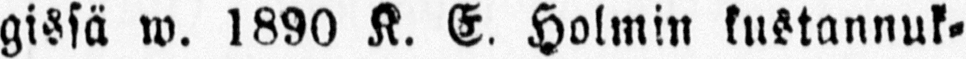gissä w. 1890 K. E. Holmin kustannuk-
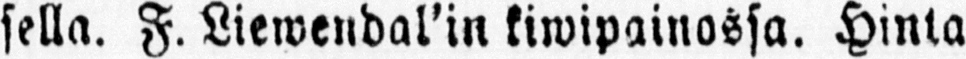sella. F. Liewendal'in kiwipainossa. Hinta
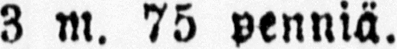3 m. 75 penniä.
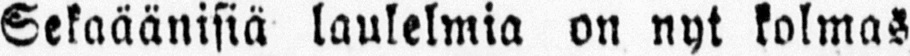Sekaäänisiä laulelmia on nyt kolmas
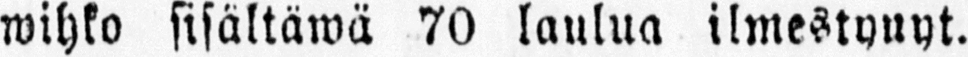wihko sisältäwä 70 laulua ilmestynyt.
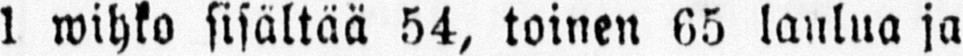1 wihko sisältää 54, toinen 65 laulua ja
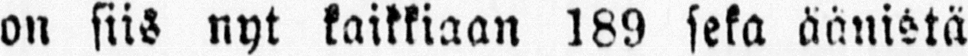on siis nyt kaikkiaan 189 seka äänistä
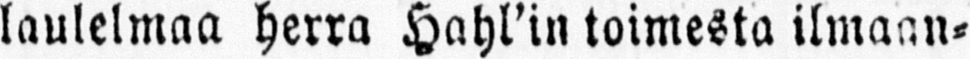laulelmaa herra Hahl'in toimesta ilmaan-
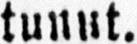tunut.
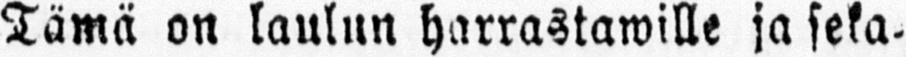Tämä on laulun harrastawille ja seka-
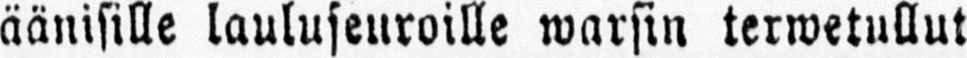äänisille lauluseuroille warsin terwetullut
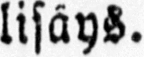lisäys.
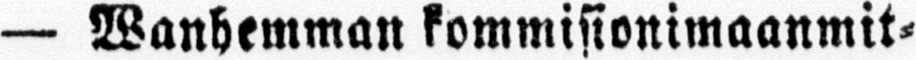— Wanhemman kommisionimaanmit-
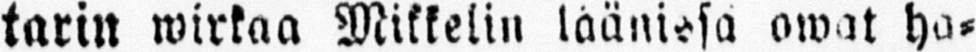tarin wirkaa Mikkelin läänissa owat ha-
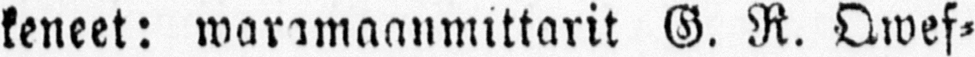keneet: waramaanmittarit G. R. Qwef-
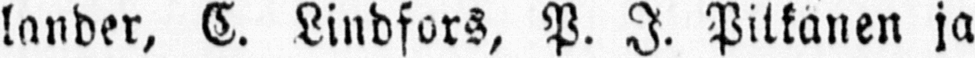lander, C. Lindfors, P. I. Pitkänen ja
